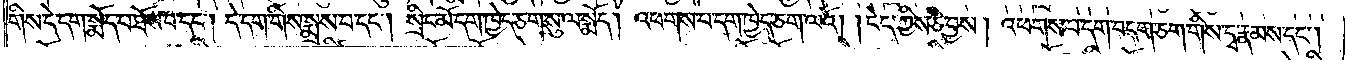གིས་དེ་དག་སྨོད་པ་ཐོས་པ་དང༌། དེ་དག་གིས་སྨྲས་པ་དང༌། སྲིང་མོ་དག་ཁྱེད་ཅག་སུ་ལ་སྨོད། འཕགས་པ་དག་ཁྱེད་ཅག་ལའོ། །ངེད་ཀྱིས་ཅི་བྱས། འཕགས་པ་དག་བདག་ཅག་གིས་དྭ་རྣམས་དང༌།
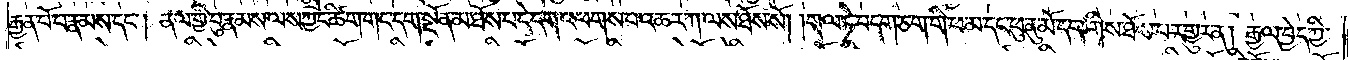རྒྱན་པོ་པ་རྣམས་དང༌། ནལ་གྱི་བུ་རྣམས་ལས་ཀྱང་ཚིག་གང་དག་སྔོན་མ་ཐོས་པ་དེ་དག་འཕགས་པ་འཆར་ཀ་ལས་ཐོས་སོ། །གལ་ཏེ་བདག་ཅག་གི་ཕ་མ་དང་ཕུ་ནུ་མོ་དག་གིས་ཐོས་པར་གྱུར་ན། རྒྱལ་བྱེད་ཀྱི་
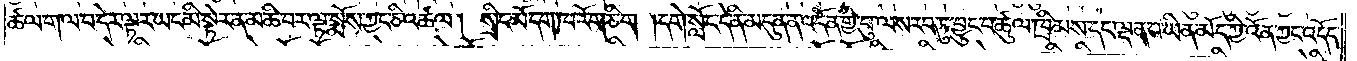ཚལ་ག་ལ་བ་དེར་ལྟར་ཡང་མི་སྟེར་ན་མཆི་བར་ལྟ་སྨོས་ཀྱང་ཅི་འཚལ། སྲིང་མོ་དག་ཁ་རོག་ཅིག །དགེ་སློང་དེ་ནི་མདུན་ན་འདོན་གྱི་བུ་ལས་རབ་ཏུ་བྱུང་བ་ཚུལ་ཁྲིམས་དང་ལྡན་པ་ཡིན་མོད་ཀྱི་འོན་ཀྱང་འདོད་
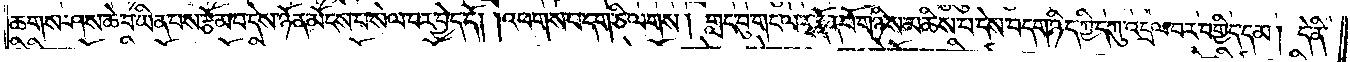ཆགས་ཤས་ཆེ་བ་ཡིན་པས་རྩོམ་པ་དེས་ཉོན་མོངས་པ་སེལ་བར་བྱེད་དོ། །འཕགས་པ་དག་ཅི་ལགས། གླང་བུ་གང་ལ་རྭ་རྣོན་པོ་གཉིས་མཆིས་པ་དེས་བདག་ཉིད་ཀྱི་དཀུ་འདྲལ་བར་བགྱིད་དམ། དེ་ནི་
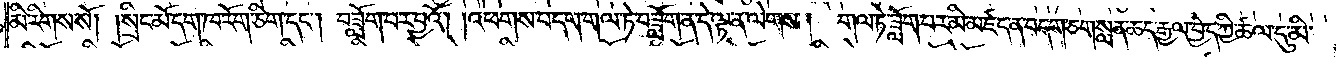མི་རིགས་སོ། །སྲིང་མོ་དག་ཁ་རོག་ཅིག་དང༌། བཟློག་པར་བྱའོ། །འཕགས་པ་དག་གལ་ཏེ་བཟློག་ན་དེ་ལྟ་ན་ལེགས།<gap>གལ་ཏེ་ཟློག་པར་མི་མཛད་ན་བདག་ཅག་སླན་ཆད་རྒྱལ་བྱེད་ཀྱི་ཚལ་དུ་མི་
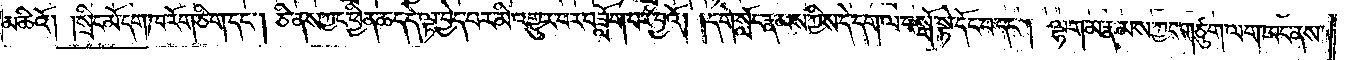མཆིའོ། །སྲིང་མོ་དག་ཁ་རོག་ཅིག་དང༌། ཅི་ནས་ཀྱང་ཕྱིན་ཆད་དེ་ལྟ་བྱེད་པར་མི་འགྱུར་བར་བཟློག་པར་བྱའོ། །དགེ་སློང་རྣམས་ཀྱིས་དེ་དག་ལ་བསྒོ་སྟེ་དོང་བ་དང༌། ལྷག་མ་རྣམས་ཀྱང་གཙུག་ལག་ཁང་ནས་
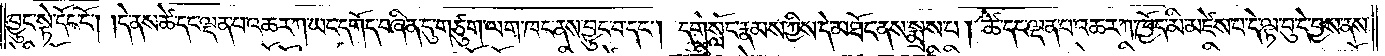བྱུང་སྟེ་དོང་ངོ༌། །དེ་ནས་ཚེ་དང་ལྡན་པ་འཆར་ཀ་ཡང་དགོད་བཞིན་དུ་གཙུག་ལག་ཁང་ནས་བྱུང་བ་དང༌། དགེ་སློང་རྣམས་ཀྱིས་དེ་མཐོང་ནས་སྨྲས་པ། ཚེ་དང་ལྡན་པ་འཆར་ཀ་ཁྱོད་མི་མཛེས་པ་དེ་ལྟ་བུ་དེ་བྱས་ནས་
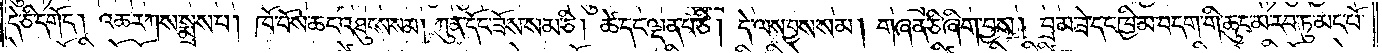དེ་ཅི་དགོད། འཆར་ཀས་སྨྲས་པ། ཁོ་བོས་ཆང་འཐུངས་སམ། ཀུན་དོང་ཟོས་སམ་ཅི། ཚེ་དང་ལྡན་པ་ཅི། དེ་ལས་བྱས་སམ། གཞན་ཅི་ཞིག་བྱས། བྲམ་ཟེ་དང་ཁྱིམ་བདག་གི་ཆུང་མ་རབ་ཏུ་མང་པོ་
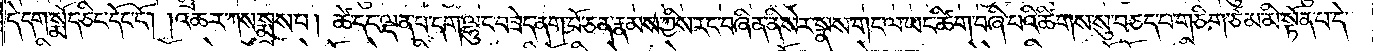དེ་དག་སྨོད་ཅིང་དོང་ངོ༌། །འཆར་ཀས་སྨྲས་པ། ཚེ་དང་ལྡན་པ་དག་ལྷུང་བཟེད་ནག་པོ་ཅན་རྣམས་ཀྱིས་རང་བཞིན་ནི་སེར་སྣས་གང་ལ་ཡང་ཚིག་བཞི་པའི་ཚིགས་སུ་བཅད་པ་གཅིག་ཙམ་མི་སྟོན་པ་དེ་
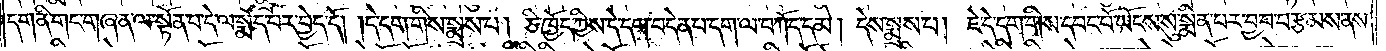དག་ནི་གང་གཞན་ལ་སྟོན་པ་དེ་ལ་སྨོད་པར་བྱེད་དོ། །དེ་དག་གིས་སྨྲས་པ། ཅི་ཁྱོད་ཀྱིས་དེ་དག་བདེན་པ་དག་ལ་བཀོད་དམ། དེས་སྨྲས་པ། ཇེ་དེ་དག་གིས་དབང་པོ་ཡོངས་སུ་སྨིན་པར་བྱ་བ་བརྩམས་ནས་
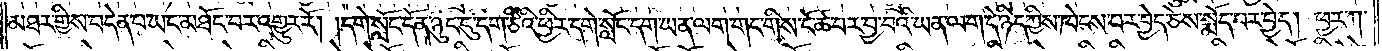མཐར་གྱིས་བདེན་པ་ཡང་མཐོང་བར་འགྱུར་རོ། །དགེ་སློང་དོན་ཉུང་ངུ་དག་ཅིའི་ཕྱིར་དགེ་སློང་དག་ཡན་ལག་གང་གིས་ངོ་ཚ་བར་བྱ་བའི་ཡན་ལག་དེ་ཉིད་ཀྱིས་ཁེངས་པར་བྱེད་ཅེས་སྨོད་པར་བྱེད། ཕྱར་ཀ་
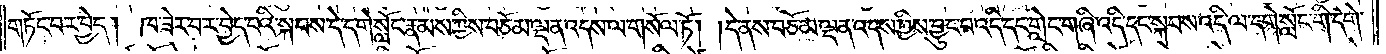གཏོང་བར་བྱེད། ཁ་ཟེར་བར་བྱེད་པའི་སྐབས་དེ་དགེ་སློང་རྣམས་ཀྱིས་བཅོམ་ལྡན་འདས་ལ་གསོལ་ཏོ། །དེ་ནས་བཅོམ་ལྡན་འདས་ཀྱིས་བྱུང་བ་འདི་དང་གླེང་གཞི་འདི་དང་སྐབས་འདི་ལ་དགེ་སློང་གི་དགེ་
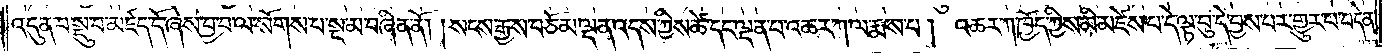འདུན་བསྡུ་བ་མཛད་དོ་ཞེས་བྱ་བ་ལ་སོགས་པ་སྔ་མ་བཞིན་ནོ། །སངས་རྒྱས་བཅོམ་ལྡན་འདས་ཀྱིས་ཚེ་དང་ལྡན་པ་འཆར་ཀ་ལ་རྨས་པ། འཆར་ཀ་ཁྱོད་ཀྱིས་མི་མཛེས་པ་དེ་ལྟ་བུ་དེ་བྱས་པར་གྱུར་པ་བདེན་
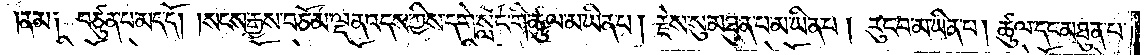ནམ༑ བཙུན་པ་མད་དོ། །སངས་རྒྱས་བཅོམ་ལྡན་འདས་ཀྱིས་དགེ་སློང་གི་ཚུལ་མ་ཡིན་པ། རྗེས་སུ་མཐུན་པ་མ་ཡིན་པ། རུང་བ་མ་ཡིན་པ། ཚུལ་དང་མཐུན་པ་
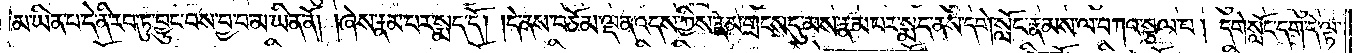མ་ཡིན་པ་དེ་ནི་རབ་ཏུ་བྱུང་བས་བྱ་བ་མ་ཡིན་ནོ། །ཞེས་རྣམ་པར་སྨད་དོ། །དེ་ནས་བཅོམ་ལྡན་འདས་ཀྱིས་རྣམ་གྲངས་དུ་མས་རྣམ་པར་སྨད་ནས་དགེ་སློང་རྣམས་ལ་བཀའ་སྩལ་པ། དགེ་སློང་དག་དེ་ལྟ་
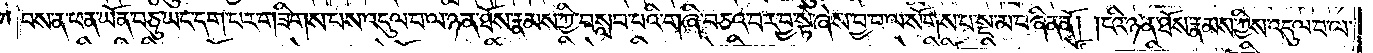བས་ན་ཕན་ཡོན་བཅུ་ཡང་དག་པར་གཟིགས་པས་འདུལ་བ་ལ་ཉན་ཐོས་རྣམས་ཀྱི་བསླབ་པའི་གཞི་བཅའ་བར་བྱ་སྟེ་ཞེས་བྱ་བ་ལ་སོགས་པ་སྔ་མ་བཞིན་ནོ། །ངའི་ཉན་ཐོས་རྣམས་ཀྱིས་འདུལ་བ་ལ་
